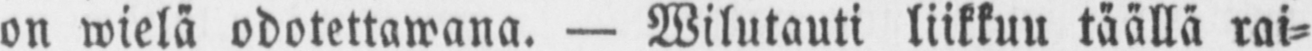on wielä odotettawana. — Wilutauti liikkuu täällä rai-
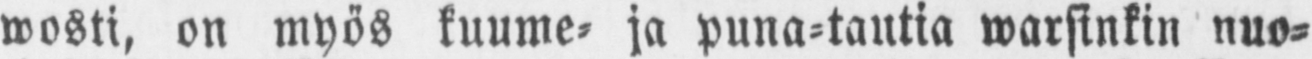wosti, on myös kuume- ja puna-tautia warsinkin nuo-
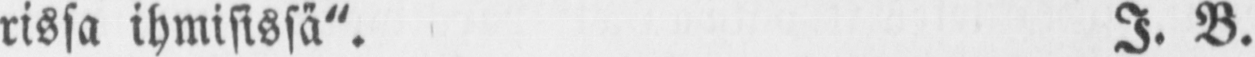rissa ihmisissä". I. B.
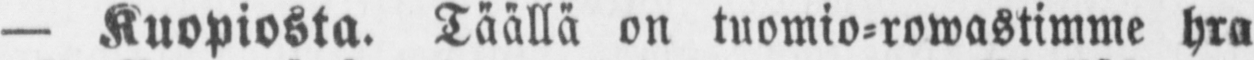— Kuopiosta. Täällä on tuomio-rowastimme hra
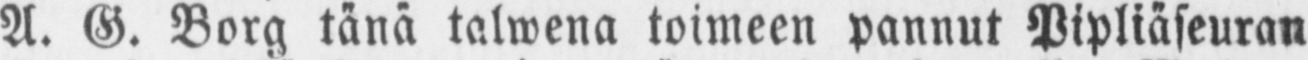A. G. Borg tänä talwena toimeen pannut Pipliäseuran
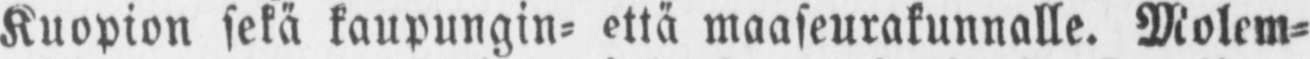Kuopion sekä kaupungin- että maaseurakunnalle. Molem-
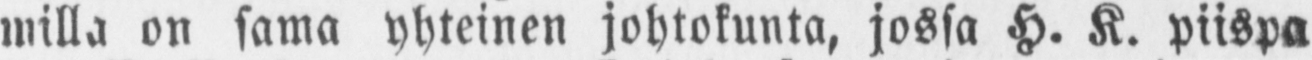milla on sama yhteinen johtokunta, jossa H. K. piispa
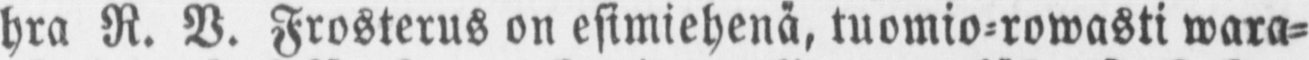hra R. V. Frosterus on esimiehenä, tuomio-rowasti wara-
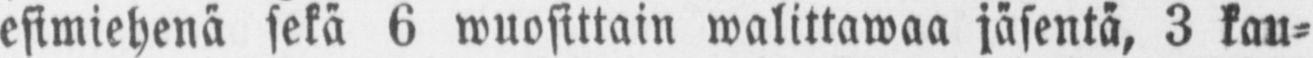esimiehenä sekä 6 wuosittain walittawaa jäsentä, 3 kau-
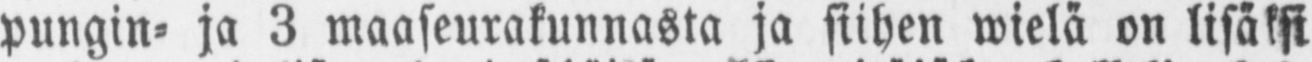pungin- ja 3 maaseurakunnasta ja siihen wielä on lisäksi
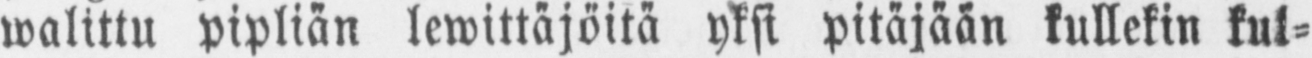walittu pipliän lewittäjöitä yksi pitäjään kullekin kul-
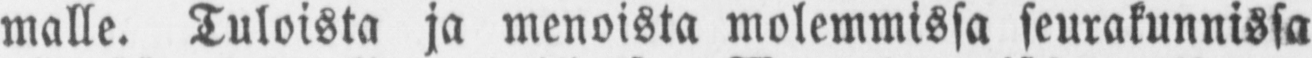malle. Tuloista ja menoista molemmissa seurakunnissa
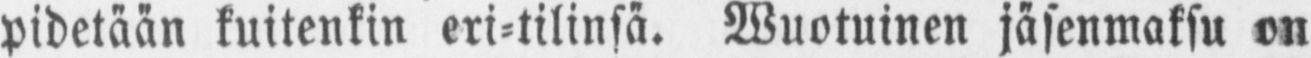pidetään kuitenkin eri-tilinsä. Wuotuinen jäsenmaksu on
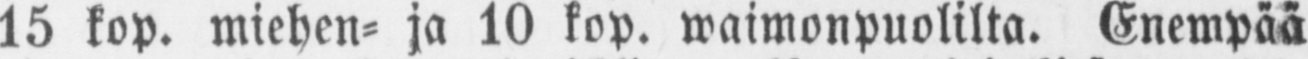15 kop. miehen- ja 10 kop. waimonpuolilta. Enempää
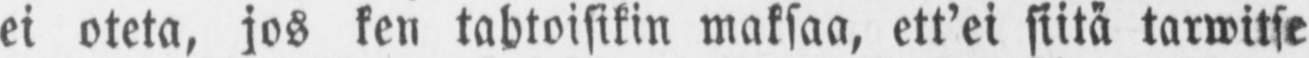ei oteta, jos ken tahtoisikin maksaa, ett'ei siitä tarwitse
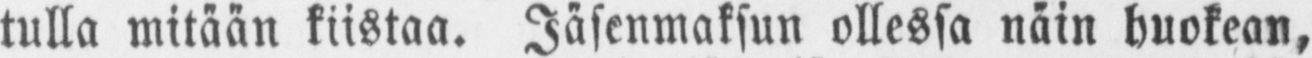tulla mitään kiistaa. Jäsenmaksun ollessa näin huokean,
